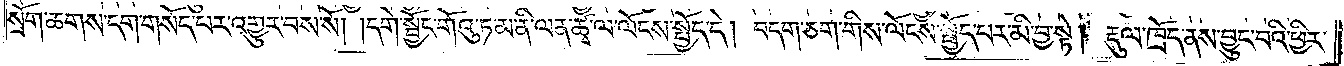སྲོག་ཆགས་དག་གསོད་པར་འགྱུར་བས་སོ། །དགེ་སྦྱོང་གོའུ་ཏ་མ་ནི་ལན་ཚྭ་ལ་ལོངས་སྤྱོད་དེ། བདག་ཅག་གིས་ལོངས་སྤྱོད་པར་མི་བྱ་སྟེ། རྡུལ་ཁྲོད་ནས་བྱུང་བའི་ཕྱིར་
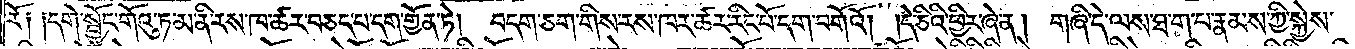རོ། །དགེ་སྦྱོང་གོའུ་ཏ་མ་ནི་རས་ཁ་ཚར་བཅད་པ་དག་གྱོན་ཏེ།    བདག་ཅག་གིས་རས་ཁར་ཚར་རིང་པོ་དག་བགོའོ། །དེ་ཅིའི་ཕྱིར་ཞེ་ན། གཞི་དེ་ལས་ཐ་ག་པ་རྣམས་ཀྱི་སྐྱེས་
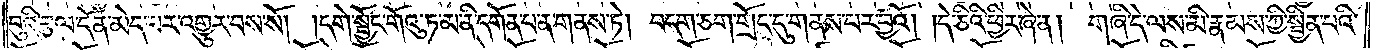བུའི་རྩལ་དོན་མེད་པར་འགྱུར་བས་སོ། །དགེ་སྦྱོང་གོའུ་ཏ་མ་ནི་དགོན་པ་ན་གནས་ཏེ། བདག་ཅག་གྲོང་དུ་གནས་པར་བྱའོ། །དེ་ཅིའི་ཕྱིར་ཞེ་ན། གཞི་དེ་ལས་མི་རྣམས་ཀྱི་སྦྱིན་པའི་
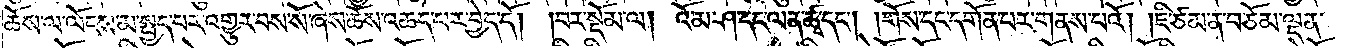ཆོས་ལ་ལོངས་མ་སྤྱད་པར་འགྱུར་བས་སོ་ཞེས་ཆོས་འཆད་པར་བྱེད་དོ། །བར་སྡོམ་ལ། འོ་མ་ཤ་དང་ལན་ཚྭ་དང༌། །གོས་དང་དགོན་པར་གནས་པའོ། །ཇི་ཙམ་ན་བཅོམ་ལྡན་
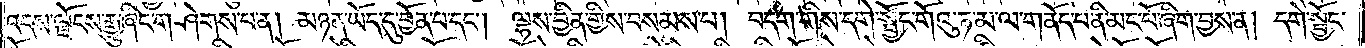འདས་ལྗོངས་རྒྱུ་ཞིང་གཤེགས་པ་ན། མཉན་ཡོད་དུ་བྱོན་པ་དང༌། ལྷས་བྱིན་གྱིས་བསམས་པ། བདག་གིས་དགེ་སྦྱོང་གོའུ་ཏ་མ་ལ་གནོད་པ་ནི་མང་པོ་ཞིག་བྱས་ན། དགེ་སྦྱོང་
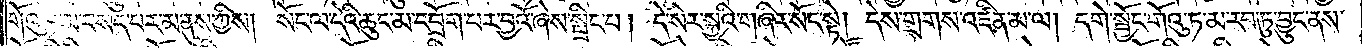གོའུ་ཏ་མ་བསད་པར་མ་ནུས་ཀྱིས། སོང་ལ་དེའི་ཆུང་མ་དབྲོག་པར་བྱའོ་ཞེས་སྤྲིང་པ། དེ་སེར་སྐྱའི་གཞིར་སོང་སྟེ། དེས་གྲགས་འཛིན་མ་ལ། དགེ་སྦྱོང་གོའུ་ཏ་མ་རབ་ཏུ་བྱུང་ནས་
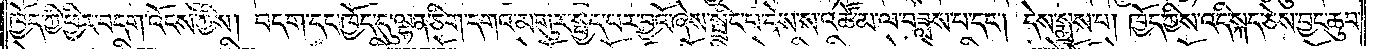ཁྱོད་ཀྱི་ཕྱིར་བདག་འོངས་ཀྱིས། བདག་དང་ཁྱོད་དུ་ལྷན་ཅིག་དགའ་མགུར་སྤྱད་པར་བྱའོ་ཞེས་སྤྲིང་པ་དེས་ས་འཚོ་མ་ལ་བཟླས་པ་དང༌། དེས་སྨྲས་པ། ཁྱོད་ཀྱིས་འདི་སྐད་ཅེས་བྱང་ཆུབ་
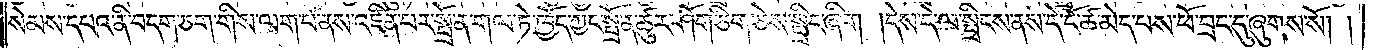སེམས་དཔའ་ནི་བདག་ཅག་གིས་ལག་པ་ནས་འཛིན་པར་སྤྲོ་ན་གལ་ཏེ་ཁྱོད་ཀྱང་སྤྲོ་ན་ཚུར་ཤོག་ཅིག་ཅེས་སྤྲིང་ཞིག །དེས་དེ་ལ་སྤྲིངས་ནས་དེ་ངོ་ཚ་མེད་པས་ཕོ་བྲང་དུ་ཞུགས་སོ། །
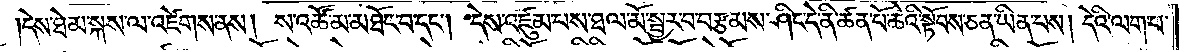།དེས་ཐེམ་སྐས་ལ་འཛེགས་ནས། ས་འཚོ་མ་མཐོང་བ་དང༌། དེས་འཛུམ་པས་ཐལ་མོ་སྦྱར་བ་བརྩམས་ཤིང་དེ་ནི་ཚན་པོ་ཆེའི་སྟོབས་ཅན་ཡིན་པས། དེའི་ལག་པ་
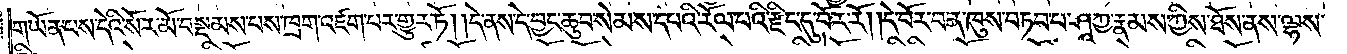གཡོན་པས་དེའི་སོར་མོ་བསྡམས་པས་ཁྲག་འཛག་པར་གྱུར་ཏོ། །དེ་ནས་དེ་བྱང་ཆུབ་སེམས་དཔའི་རོལ་བའི་རྫིང་དུ་བོར་རོ། །དེ་བོར་བ་ན་ཁུས་བཏབ་པ་ཤཱཀྱ་རྣམས་ཀྱིས་ཐོས་ནས་ལྷས་
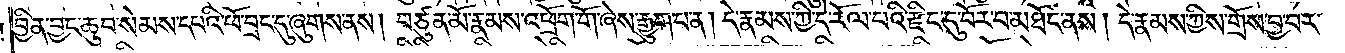བྱིན་བྱང་ཆུབ་སེམས་དཔའི་ཕོ་བྲང་དུ་ཞུགས་ནས། བཙུན་མོ་རྣམས་འཕྲོག་གོ་ཞེས་རྒྱུག་པ་ན། དེ་རྣམས་ཀྱི་དེ་རོལ་པའི་རྫིང་དུ་བོར་བ་མཐོང་ནས། དེ་རྣམས་ཀྱིས་གྲོས་བྱ་བར་
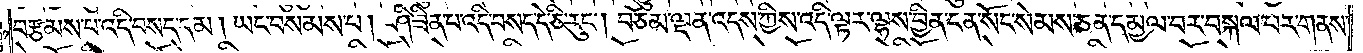བརྩམས་པ་འདི་བསད་དམ། ཡང་བསམས་པ། ཤི་ཟིན་པ་འདི་བསད་དེ་ཅི་རུང༌། བཅོམ་ལྡན་འདས་ཀྱིས་འདི་ལྟར་ལྷས་བྱིན་ངན་སོང་སེམས་ཅན་དམྱལ་བར་བསྐལ་པར་གནས་
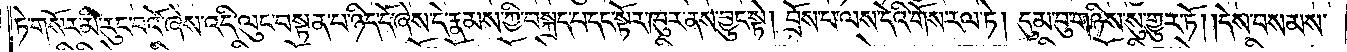ཏེ་གསོར་མི་རུང་བའོ་ཞེས་འདི་ལུང་བསྟན་པ་ཉིད་དོ་ཞེས་དེ་རྣམས་ཀྱི་བསྐྲད་པ་དང་སྟོར་ཁུར་ནས་བྱུང་སྟེ། བྲོས་པ་ལས་དེའི་གོས་རལ་ཏེ། དུམ་བུ་གཉིས་སུ་གྱུར་ཏོ། །དེས་བསམས་
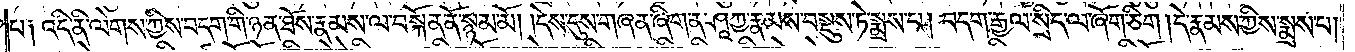པ། འདི་ནི་ལེགས་ཀྱིས་བདག་གི་ཉན་ཐོས་རྣམས་ལ་བསྐོན་ནོ་སྙམ་མོ། །དེས་དུས་གཞན་ཞིག་ན་ཤཱཀྱ་རྣམས་བསྡུས་ཏེ་སྨྲས་པ། བདག་རྒྱལ་སྲིད་ལ་ཞོག་ཅིག །དེ་རྣམས་ཀྱིས་སྨྲས་པ།
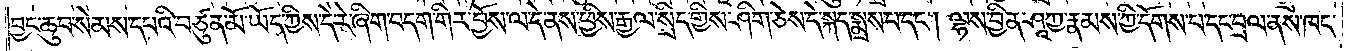བྱང་ཆུབ་སེམས་དཔའི་བཙུན་མོ་ཡོད་ཀྱིས་དེ་རེ་ཞིག་བདག་གིར་བྱོས་ལ་དེ་ནས་ཕྱིས་རྒྱལ་སྲིད་ཀྱིས་ཤིག་ཅེས་དེ་སྐད་སྨྲས་པ་དང༌། ལྷས་བྱིན་ཤཱཀྱ་རྣམས་ཀྱི་དོགས་པ་དང་བྲལ་ནས་ཁང་
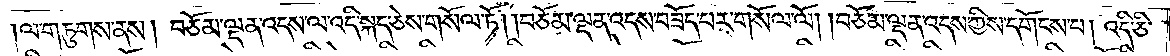།ལ་གཏུགས་ནས། བཅོམ་ལྡན་འདས་ལ་འདི་སྐད་ཅེས་གསོལ་ཏོ། །བཅོམ་ལྡན་འདས་བཟོད་པར་གསོལ་ལོ། །བཅོམ་ལྡན་འདས་ཀྱིས་དགོངས་པ། འདི་ཅི་
